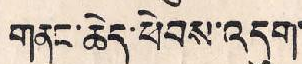གནང་ཆེད་ཕེབས་འདུག་
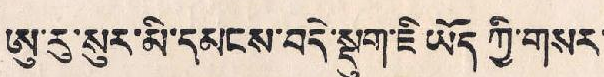ཨུ་རུ་སུར་མི་དམངས་བདེ་སྡུག་ཇི་ཡོད་ཀྱི་གསར་
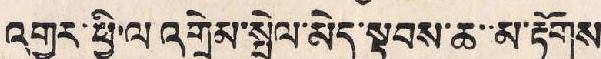འགྱུར་ཕྱི་ལ འགྲེམ་སྤེལ་མེད་སྟབས་ཆ་མ་རྟོགས་
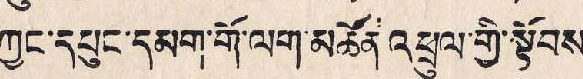ཀྱང་དཔུང་དམག་གོ་ལག་མཚོན་འཕྲུལ་གྱི་སྟོབས་
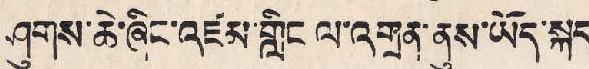ཤུགས་ཆེ་ཞིང་འཛམ་གླིང ལ་འགྲམ་ནུས་ཡོད་སྐད།
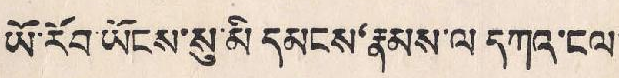ཡོ་རབ་ཡོངས་སུ་མི་དམངས'རྣམས་ལ དཀའ་ངལ་
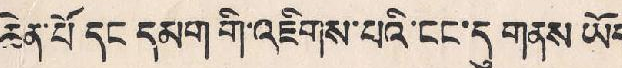ཆེན་པོ་དང་དམག་གི་འཇིགས་པའི་ངང་དུ་གནས་ཡོད་
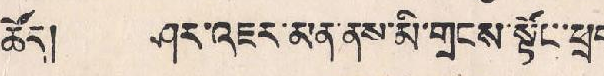ཚོད། ཤར་འཇར་མན་ནས་མི་གྲངས་སྟོང་ཕྲག་
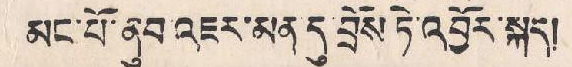མང་པོ་ནུབ་འཇར་མན་དུ བྲོས ཏེ་འབྱོར་སྐད།
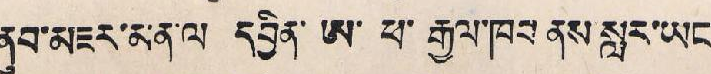ནུབ་མཇར་མན་ལ དབྱིན་ ཨ་ ཕ་ རྒྱལ་ཁབ ནས་སླར་ཡང་
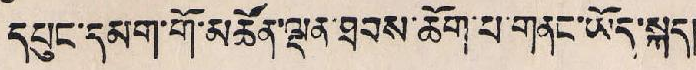དཔུང་དམག་གོ་མཆོན་ལྡན་ཐབས་ཆོག་པ་གནང་ཡོད་སྐད།།
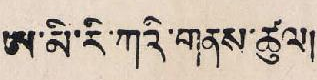ཨ་མི་རི་ཀའི་གནས་ཚུལ།
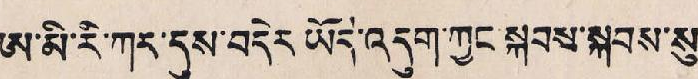ཨ་མི་རི་ཀར་དུས་བདེར ཡོད་འདུག་ཀྱང་སྐབས་སྐབས་སུ་
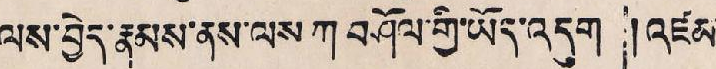ལས་བྱེད་རྣམས་ནས ལས ཀ བཤོལ་གྱི་ཡོད་འདུག །འཛམ་
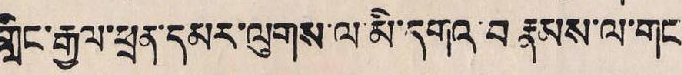གླིང་རྒྱལ་ཕྲན་དམར་ལུགས་ལ་མི་དགའ་བ རྣམས་ལ་གང་
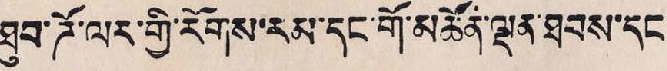ཐུབ་ཌོ་ལར་གྱི་རོགས་རམ་དང་གོ་མཚོན་ལྡན་ཐབས་དང་
